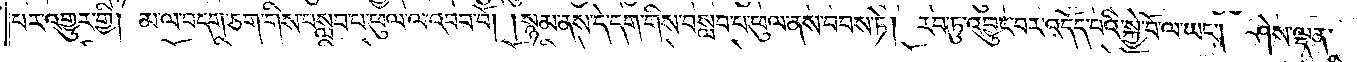པར་འགྱུར་གྱི། མ་ལ་བདག་ཅག་གིས་བསླབ་པ་ཕུལ་བ་འབབ་བོ། །སྙམ་ནས་དེ་དག་གིས་བསླབ་པ་ཕུལ་ནས་བབས་ཏེ། རབ་ཏུ་འབྱུང་བར་འདོད་པའི་སྐྱེ་བོ་ལ་ཡང༌། ཤེས་ལྡན་
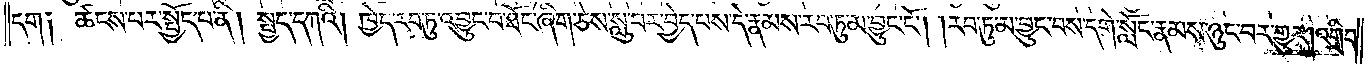དག །ཚངས་པར་སྤྱོད་པ་ནི། སྤྱད་དཀའི། ཁྱེད་རབ་ཏུ་འབྱུང་བ་ཐོང་ཞིག་ཅེས་སླུ་བར་བྱེད་པས་དེ་རྣམས་རབ་ཏུ་མ་བྱུང་ངོ༌། །རབ་ཏུ་མ་བྱུང་བས་དགེ་སློང་རྣམས་ཉུང་བར་གྱུར། འགྲིབ་
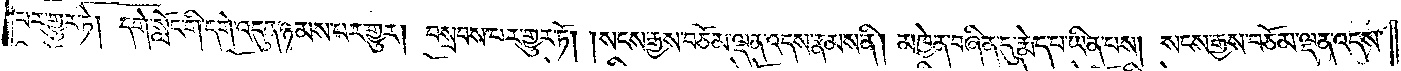བར་གྱུར་ཏེ། དགེ་སློང་གི་དགེ་འདུན་ཉམས་པར་གྱུར། །བསྲབས་པར་གྱུར་ཏོ། །སངས་རྒྱས་བཅོམ་ལྡན་འདས་རྣམས་ནི། མཁྱེན་བཞིན་དུ་རྨེད་པ་ཡིན་པས། སངས་རྒྱས་བཅོམ་ལྡན་འདས་
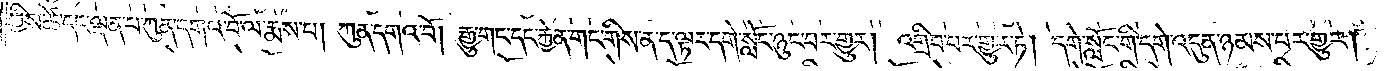ཀྱིས་ཚེ་དང་ལྡན་པ་ཀུན་དགའ་བོ་ལ་རྨས་པ། ཀུན་དགའ་བོ། རྒྱུ་གང་དང་རྐྱེན་གང་གིས་ན་ད་ལྟར་དགེ་སློང་ཉུང་བར་གྱུར། འགྲིབ་པར་གྱུར་ཏེ། དགེ་སློང་གི་དགེ་འདུན་ཉམས་པར་གྱུར།
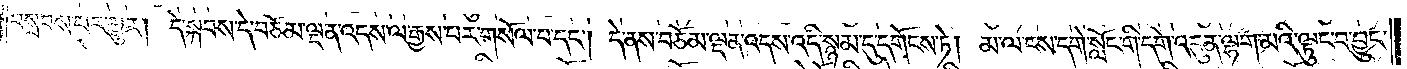བསྲབས་པར་གྱུར། དེ་སྐབས་དེ་བཅོམ་ལྡན་འདས་ལ་རྒྱས་པར་གསོལ་བ་དང༌། དེ་ནས་བཅོམ་ལྡན་འདས་འདི་སྙམ་དུ་དགོངས་ཏེ། མ་ལ་ངས་དགེ་སློང་གི་དགེ་འདུན་ལྷག་མའི་ལྟུང་བ་བྱུང་
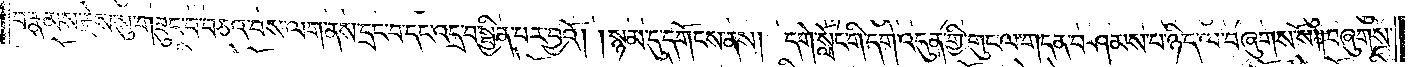བ་རྣམས་རྗེས་སུ་གཟུང་བ་བཅའ་བས་ལག་ནས་དྲང་བ་དང་འདྲ་བ་སྦྱིན་པར་བྱའོ། །སྙམ་དུ་དགོངས་ནས། དགེ་སློང་གི་དགེ་འདུན་གྱི་གུང་ལ་གདན་བཤམས་པ་ཉིད་ལ་བཞུགས་སོ། །བཞུགས་
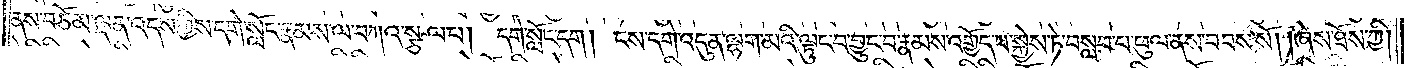ནས་བཅོམ་ལྡན་འདས་ཀྱིས་དགེ་སློང་རྣམས་ལ་བཀའ་སྩལ་པ། དགེ་སློང་དག །ངས་དགེ་འདུན་ལྷག་མའི་ལྟུང་བ་བྱུང་བ་རྣམས་འགྱོད་པ་སྐྱེས་ཏེ་བསླབ་པ་ཕུལ་ནས་བབས་སོ། །ཞེས་ཐོས་ཀྱི།
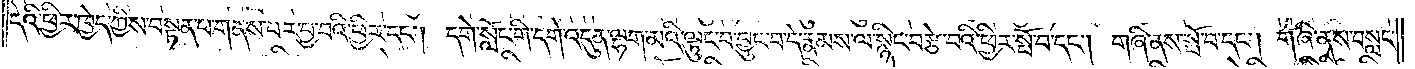དེའི་ཕྱིར་ཁྱེད་ཀྱིས་བསྟན་པ་གནས་པར་བྱ་བའི་ཕྱིར་དང༌། དགེ་སློང་གི་དགེ་འདུན་ལྷག་མའི་ལྟུང་བ་བྱུང་བ་དེ་རྣམས་ལ་སྙིང་བརྩེ་བའི་ཕྱིར་སྤོ་བ་དང༌། གཞི་ནས་སྤོ་བ་དང༌། གཞི་ནས་བསླང་
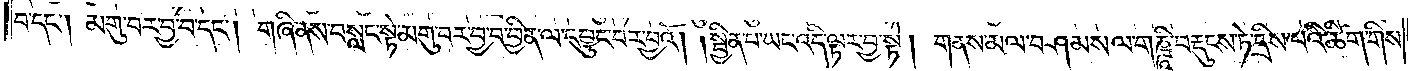བ་དང༌། མགུ་བར་བྱ་བ་དང༌། གཞི་ནས་བསླང་སྟེ་མགུ་བར་བྱ་བ་བྱིན་ལ་དབྱུང་བར་བྱའོ། །སྦྱིན་པ་ཡང་འདི་ལྟར་བྱ་སྟེ། གནས་མལ་བཤམས་ལ་གཎྜཱི་བརྡུངས་ཏེ་དྲིས་པའི་ཚིག་གིས་
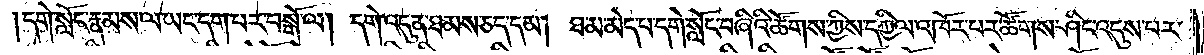།དགེ་སློང་རྣམས་ལ་ཡང་དག་པར་བསྒོ་ལ། དགེ་འདུན་ཐམས་ཅད་དམ། ཐ་མ་མེད་པ་དགེ་སློང་བཞིའི་ཚོགས་ཀྱིས་དཀྱིལ་འཁོར་པར་ཚོགས་ཤིང་འདུས་པར་
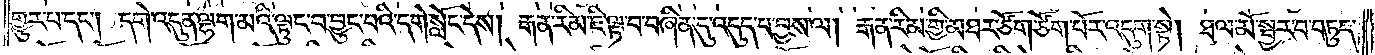གྱུར་པ་དང༌། དགེ་འདུན་ལྷག་མའི་ལྟུང་བ་བྱུང་བའི་དགེ་སློང་དེས། རྒན་རིམ་ཇི་ལྟ་བ་བཞིན་དུ་འདུད་པ་བྱས་ལ། རྒན་རིམ་གྱི་མཐར་ཙོག་ཙོག་པོར་འདུག་སྟེ། ཐལ་མོ་སྦྱར་བ་བཏུད་
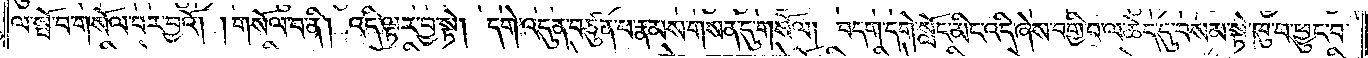ལ་སྤོ་བ་གསོལ་བར་བྱའོ། །གསོལ་བ་ནི། འདི་ལྟར་བྱ་སྟེ། དགེ་འདུན་བཙུན་པ་རྣམས་གསན་དུ་གསོལ། བདག་དགེ་སློང་མིང་འདི་ཞེས་བགྱི་བ་ལ་ཆེད་དུ་བསམ་སྟེ་ཁུ་བ་ཕྱུང་བ་
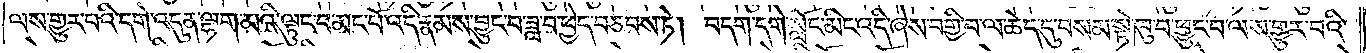ལས་གྱུར་བའི་དགེ་འདུན་ལྷག་མའི་ལྟུང་བ་མང་པོ་འདི་རྣམས་བྱུང་བ་ཟླ་བ་ཕྱེད་བཅབས་ཏེ། བདག་དགེ་སློང་མིང་འདི་ཞེས་བགྱི་བ་ལ་ཆེད་དུ་བསམ་སྟེ་ཁུ་བ་ཕྱུང་བ་ལས་གྱུར་བའི་
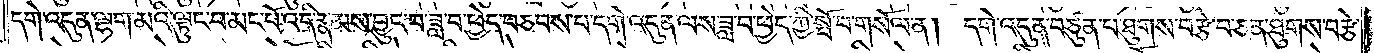དགེ་འདུན་ལྷག་མའི་ལྟུང་བ་མང་པོ་འདི་རྣམས་བྱུང་བ་ཟླ་བ་ཕྱེད་བཅབས་པ་དགེ་འདུན་ལས་ཟླ་བ་ཕྱེད་ཀྱི་སྤོ་བ་གསོལ་ན། དགེ་འདུན་བཙུན་པ་ཐུགས་བརྩེ་བ་ཅན་ཐུགས་བརྩེ་
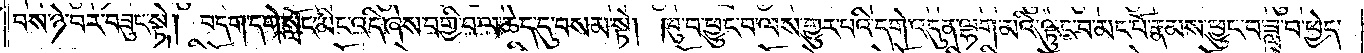བས་ཉེ་བར་བཟུང་སྟེ། བདག་དགེ་སློང་མིང་འདི་ཞེས་བགྱི་བ་ལ་ཆེད་དུ་བསམ་སྟེ། ཁུ་བ་ཕྱུང་བ་ལས་གྱུར་བའི་དགེ་འདུན་ལྷག་མའི་ལྟུང་བ་མང་པོ་རྣམས་ཕྱུང་བ་ཟླ་བ་ཕྱེད་
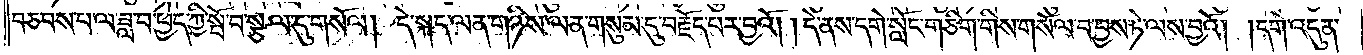བཅབས་པ་ལ་ཟླ་བ་ཕྱེད་ཀྱི་སྤོ་བ་སྩལ་དུ་གསོལ། དེ་སྐད་ལན་གཉིས་ལན་གསུམ་དུ་བརྗོད་པར་བྱའོ། །དེ་ནས་དགེ་སློང་གཅིག་གིས་གསོལ་བ་བྱས་ཏེ་ལས་བྱའོ། །དགེ་འདུན་
